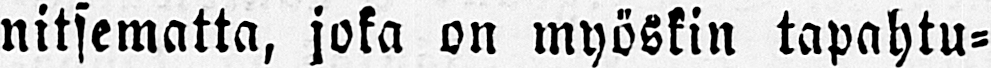nitsematta, joka on myöskin tapahtu-
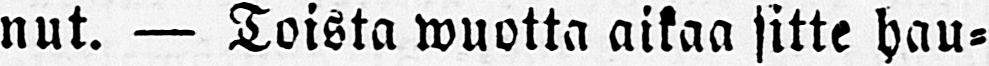nut. — Toista wuotta aikaa sitte hau-
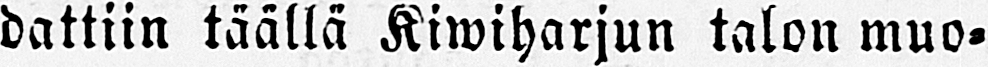dattiin täällä Kiwiharjun talon muo-
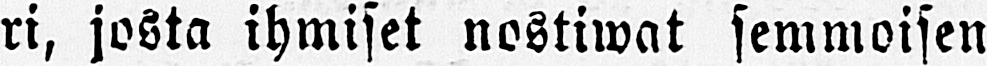ri, josta ihmiset nostiwat semmoisen
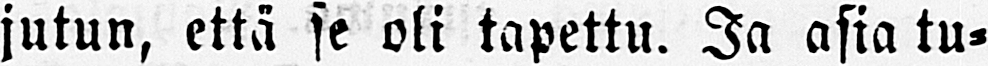jutun, että se oli tapettu. Ja asia tu-
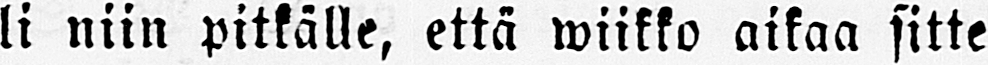li niin pitkälle, että wiikko aikaa sitte
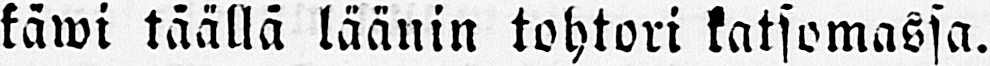käwi täällä läänin tohtori katsomassa.
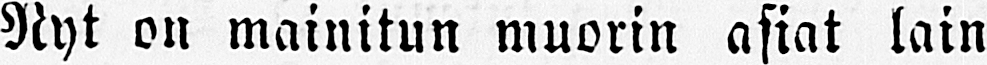Nyt on mainitun muorin asiat lain
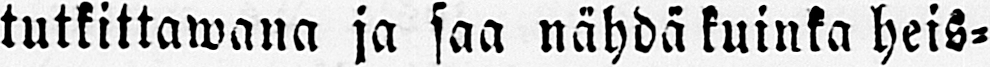tutkittawana ja saa nähdä kuinka heis-
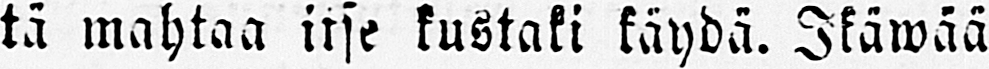tä mahtaa itse kustaki käydä. Ikäwää
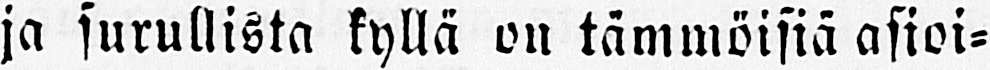ja surullista kyllä on tämmöisiä asioi-
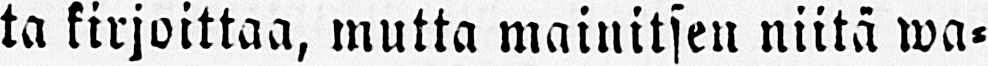ta kirjoittaa, mutta mainitsen niitä wa-
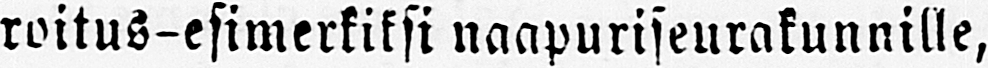roitus-esimerkiksi naapuriseurakunnille,
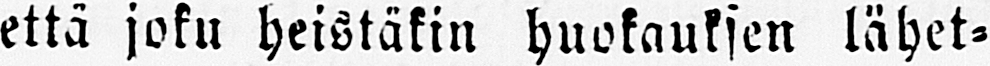että joku heistäkin huokauksen lähet-
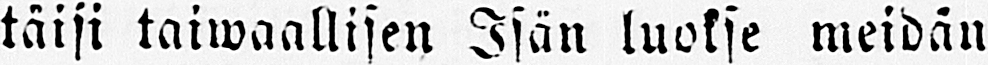täisi taiwaallisen Isän luokse meidän
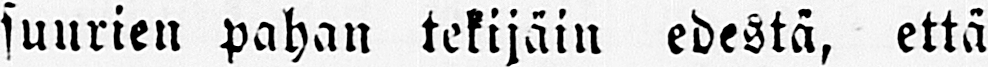suurien pahan tekijäin edestä, että
